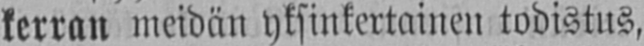kerran meidän yksinkertainen todistus,
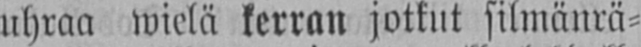uhraa wielä kerran jotkut silmänrä-
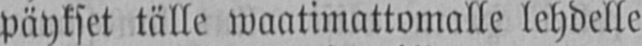päykset tälle waatimattomalle lehdelle
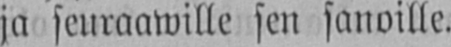ja seuraawille sen sanoille.
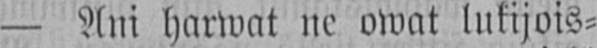— Ani harwat ne owat lukijois-
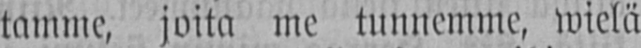tamme, joita me tunnemme, wielä
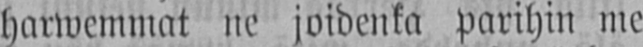harwemmat ne joidenka parihin me
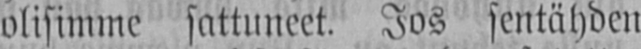olisimme sattuneet. Jos sentähden
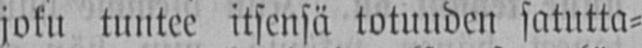joku tuntee itsensä totuuden satutta-
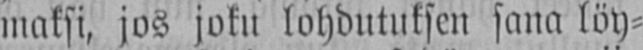maksi, jos joku lohdutuksen sana löy-
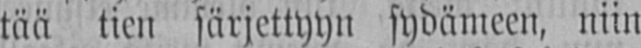tää tien särjettyyn sydämeen, niin
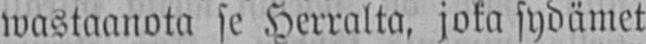wastaanota se Herralta, joka sydämet
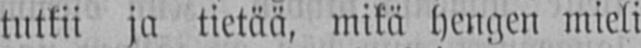tutkii ja tietää, mikä hengen mieli
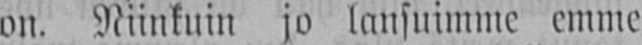on. jo lansuimme emme
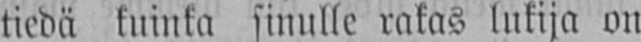tiedä kuinka sinulle lukija on
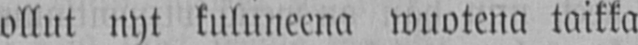ollut nyt kuluneena wuotena taikka
